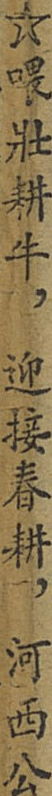☆喂壯耕牛，迎接春耕，河西公
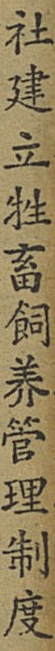社建立牲畜飼养管理制度
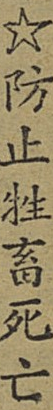☆防止牲畜死亡
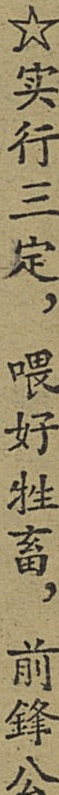☆实行三定，喂好牲畜，前鋒公
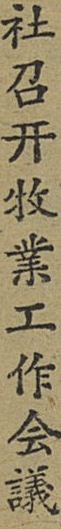社召开牧業工作会議
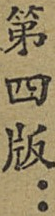第四版：
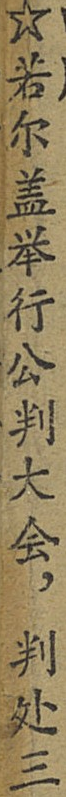☆若尔盖举行公判大会，判处三
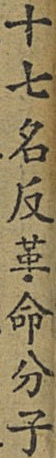十七名反革命分子
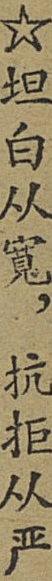☆坦白从寬，抗拒从严
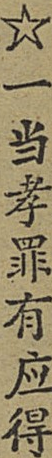☆一当孝罪有应得
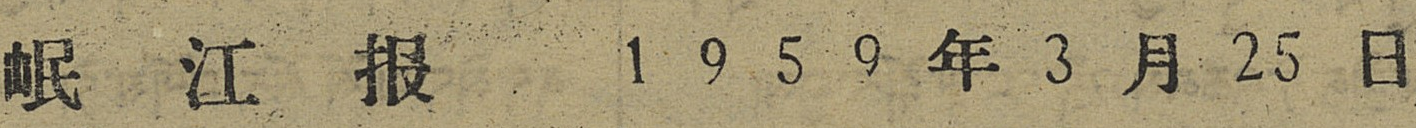岷 江 报 1 9 5 9 年 3 月 25 日
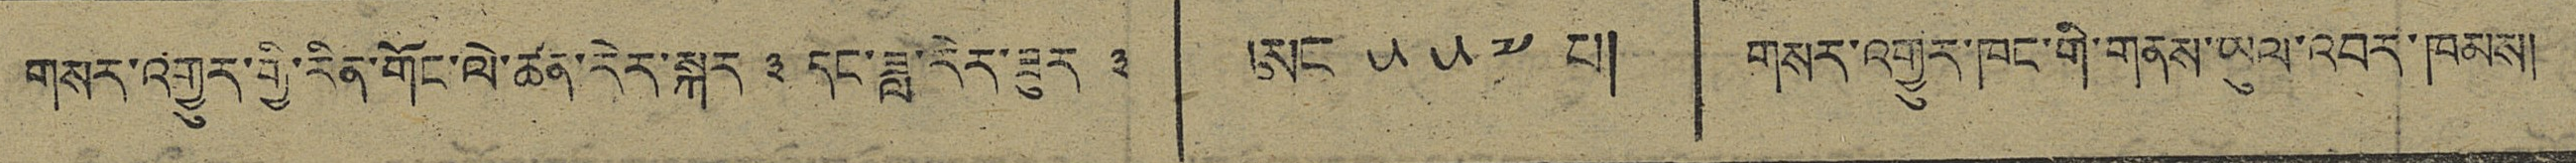གསར་འགྱུར་གྱི་རིན་གོང་ལེ་ཚན་རེར་སྐར ༣ དང་ཟླ་རེར་ཟུར ༣ ཨང ༥༥༧ པ། གསར་འགྱུར་ཁང་གི་གནས་ཡུལ་འབར་ཁམས།
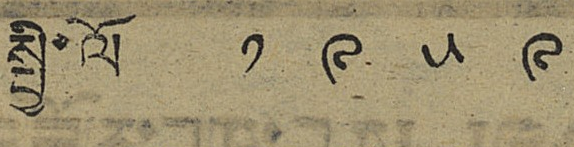སྤྱི་ལོ ༡ ༩ ༥ ༩
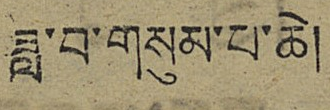ཟླ་བ་གསུམ་པ་ཆེ།
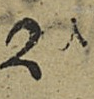༢༥
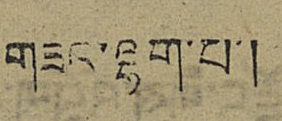གཟའ་ལྷག་པ་།
